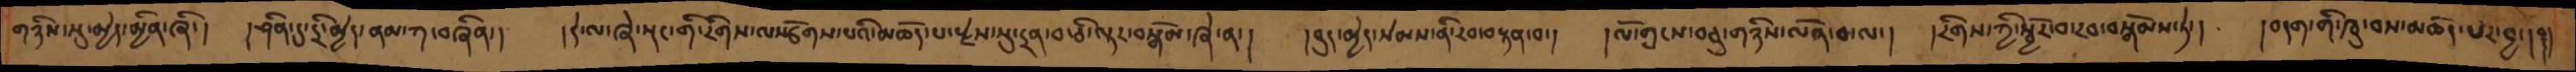གཉིས་སུ་མྱེད་མྱིན་ཞི་།   །ཤིན་དུ་དྲི་མྱེད་ནམ་ཀ་བཞིན་།   །དེ་ལ་ཞེ་སྡང་གི་རིགས་ལསྩོགས་པའི་མཆོད་པ་རྗེས་སུ་དྲན་བ་ཅི་ལྟར་བསྒོམ་ཞེ་ན་།  །བུད་མྱེད་སེམས་ནི་རབ་བསྟན་བ་།  །ལོ་གྲངས་བཅུ་གཉིས་ལེན་བ་ལ་།   རིགས་ཀྱི་སྦྱོར་བ་རབ་བསྒོམས་ཏེ་།   །བདག་གི་ཁུ་བས་མཆོད་པར་བྱ་།།
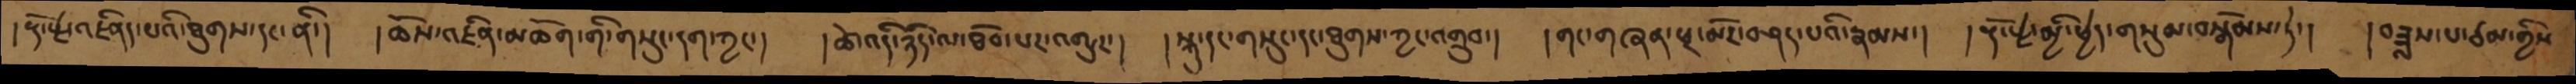།རྡོ་རྗེ་འཛིནད་པའི་ཐུགས་དང་ནི་།  །ཆོས་འཛིན་མཆོག་གི་གསུང་དག་ཀྱང་།  །ཚེ་འདི་ཉིད་ལ་ཐོབ་པར་འགྱུར་།  །སྐུ་དང་གསུང་དང་ཐུགས་ཀྱང་འགྲུབ་།  །གང་གཞན་ཕྲ་མོར་བཤད་པའི་རྣམས་།  །རྡོ་རྗེ་མྱི་ཕྱེད་གསུམ་བསྒོམས་ཏེ་།   །བཟླས་པ་ཙམ་གྱིས་
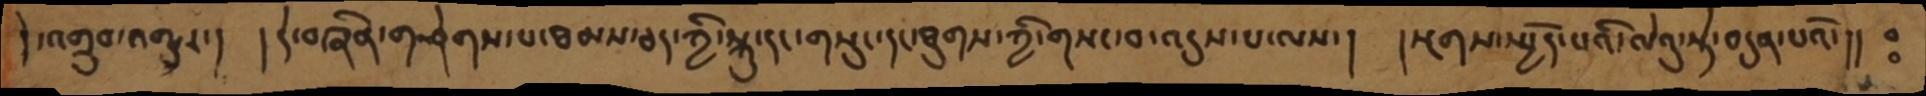དེ་འགྲུབ་འགྱུར་།  །དེ་བཞིན་གཤེགས་པ་ཐམས་ཅད་ཀྱི་སྐུ་དང་གསུང་དང་ཐུགས་ཀྱི་གསང་བ་འདུས་པ་ལས་།  །སྔགས་སྤྱོད་པའི་ལེའུ་སྟེ་བདུན་པའོ།།  ཿ
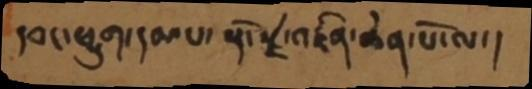དབང་ཕྱུག་དམ་པ་རྡོ་རྗེ་འཛིན་ཆེན་པོ་ལ་།
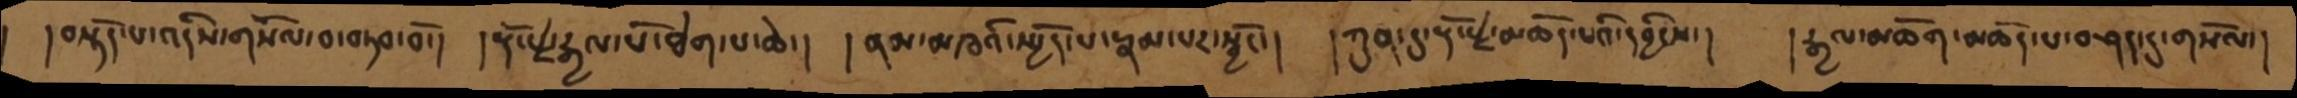།བསྟོད་པ་འདིས་གསོལ་བ་བཏབ་བོ་།   །རྡོ་རྗེ་རྒྱལ་པོ་ཐེག་པ་ཆེ་།  །ནམ་མཁའི་སྤྱོད་པ་རྣམ་པར་སྦྱོང་།   །ཀུན་དུ་རྡོ་རྗེ་མཆོད་པའི་དབྱིངས་།    །རྒྱལ་མཆོག་མཆོད་པ་བཤད་དུ་གསོལ་།
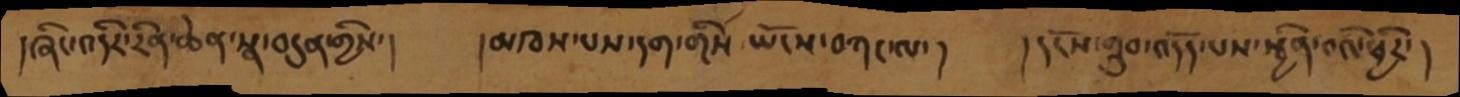།ཞིང་འདིར་རིན་ཆེན་སྣ་བདུན་གྱིས་།   །མཁས་པས་དག་གིས་ཡོངས་བཀང་ལ་།  །དངོས་གྲུབ་འདོད་པས་སྦྱིན་བའི་ཕྱིར་།
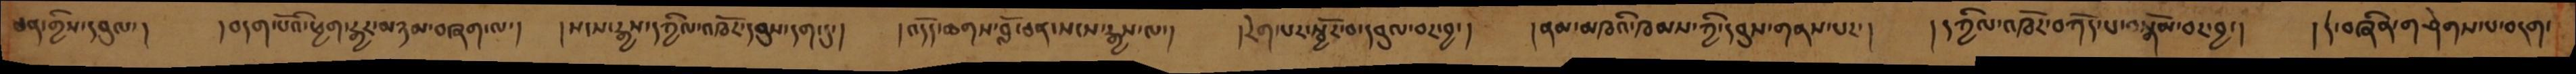ཅན་གྱིས་དབུལ་།  །བདག་པོའི་ཕྱག་རྒྱར་མཉམ་བཞག་ལ་།  །སངས་རྒྱས་དཀྱིལ་འཁོར་དབུས་དག་དུ་།   །འདོད་ཆགས་བློ་ཅན་སངས་རྒྱས་ལ་།  །རེག་པར་སྦྱོར་བ་དབུལ་བར་བྱ་།  །ནམ་མཁའི་ཁམས་ཀྱི་དབུས་གནས་པར་།   །དཀྱིལ་འཁོར་བཀོད་པ་བསྒོམ་བར་བྱ་།   །དེ་བཞིན་གཤེགས་པ་བདག་
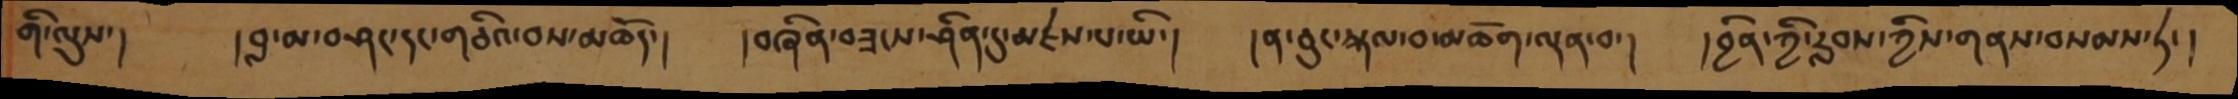གི་ལུས་།    །བླ་མ་བཤང་དང་གཅིའ་བས་མཆོད་།   །བཞིན་བཟངས་ཤིན་དུ་མཛེས་པ་ཡི་།   །ན་ཅུང་སྐལ་བ་མཆོག་ལྡན་བ་།   །བྱིན་ཀྱི་རླབས་ཀྱིས་གནས་བསམས་ཏེ་།
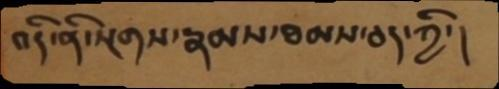འདི་ནི་སྔགས་རྣམས་ཐམས་ཅད་ཀྱི་།
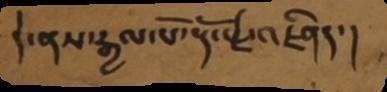དེ་ནས་རྒྱལ་པོ་རྡོ་རྗེ་འཛིནད་།
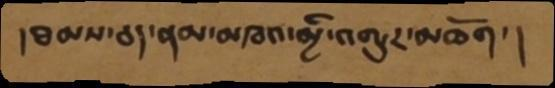།ཐམས་ཅད་ནམ་མཁའ་མྱི་འགྱུར་མཆོག་།
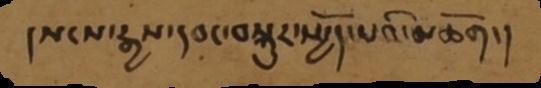།སངས་རྒྱས་དབང་བསྐུར་སྤྱོད་པའི་མཆོག་།
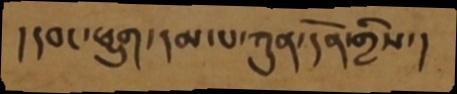།དབང་ཕྱུག་དམ་པ་ཀུན་དོན་གྱིས་།
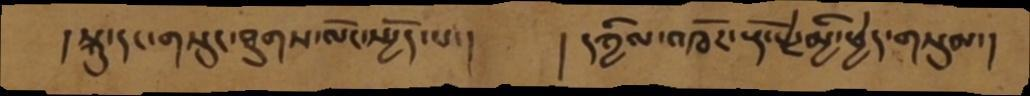།སྐུ་དང་གསུང་ཐུགས་ལོང་སྤྱོད་པ་།    །དཀྱིལ་འཁོར་རྡོ་རྗེ་མྱི་ཕྱེད་གསུམ་།
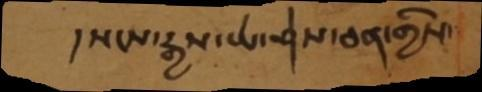།སངས་རྒྱས་ཡེ་ཤེས་ཅན་གྱིས་
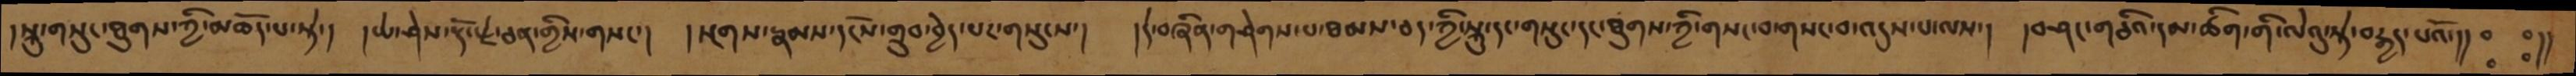།སྐུ་གསུང་ཐུགས་ཀྱི་མཆོད་པ་སྟེ་།  །ཡེ་ཤེས་རྡོ་རྗེ་ཅན་གྱིས་གསང་།  །སྔགས་རྣམས་དངོས་གྲུབ་བྱེད་པར་གསུངས་།  །དེ་བཞིན་གཤེགས་པ་ཐམས་ཅད་ཀྱི་སྐུ་དང་གསུང་དང་ཐུགས་ཀྱི་གསང་བ་གསང་བ་འདུས་པ་ལས་།  །བཤང་གཅིའ་དམ་ཚིག་གི་ལེའུ་སྟེ་བརྒྱད་པའོ་།། ཿ  ཿ  །།
